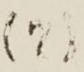(7)
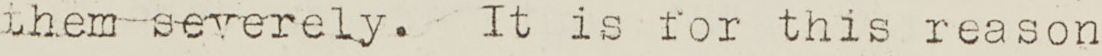them severely. It is for this reason
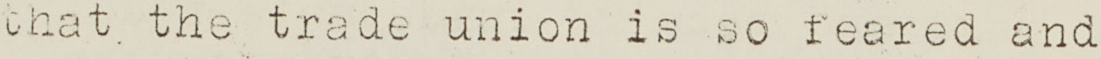hat the trade union is so feared and
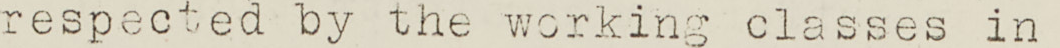respected by the working classes in
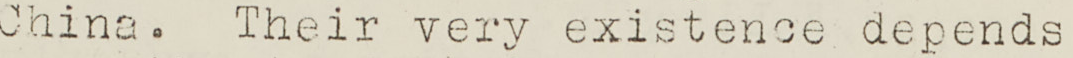China. Their very existence depends
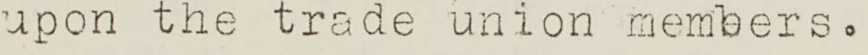upon the trade union members.
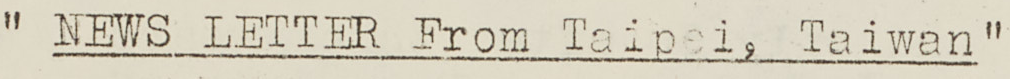" NEWS LETTER From Taip i Taiwan"
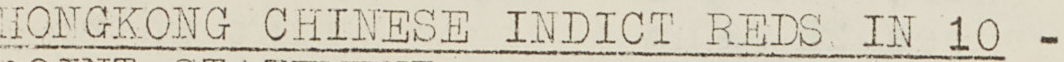HONGKONG CHINESE INDICT REDS IN 10 -
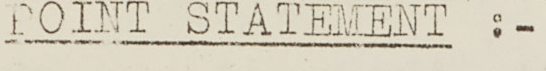POINT STATEMENT :-
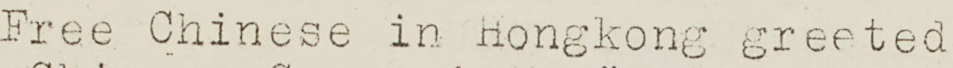Free Chinese in Hongkong greeted
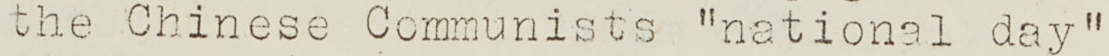the Chinese Communists "national day"
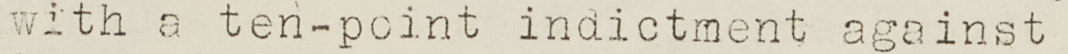with a ten-point indictment against
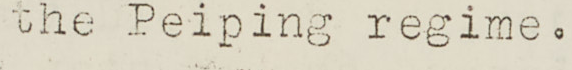the Peiping regime.
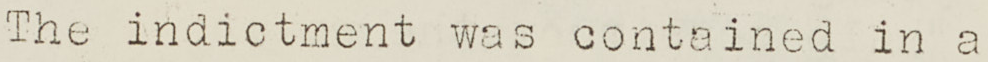The indictment was contained in
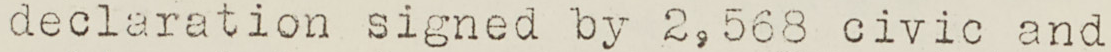declaration signed by 2,568 civic and
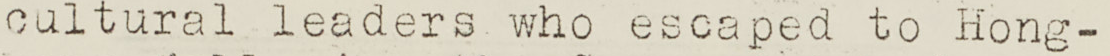cultural leaders who escaped to Hong-
